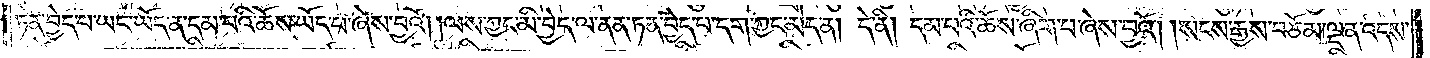ཏན་བྱེད་པ་ཡང་ཡོད་ན་དམ་པའི་ཆོས་ཡོད་པ་ཞེས་བྱའོ། །ལས་ཀྱང་མི་བྱེད་ལ་ནན་ཏན་བྱེད་པ་དག་ཀྱང་མེད་ན། དེ་ནི། དམ་པའི་ཆོས་ཞིག་པ་ཞེས་བྱའོ། །སངས་རྒྱས་བཅོམ་ལྡན་འདས་
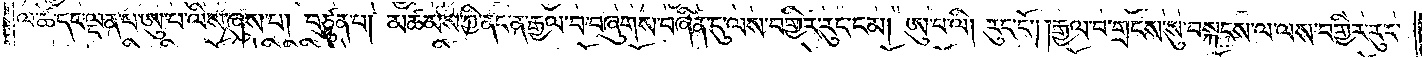ལ་ཚེ་དང་ལྡན་པ་ཨུ་པ་ལིས་ཞུས་པ། བཙུན་པ། མཚམས་ཀྱི་ནང་ན་རྒྱལ་བ་བཞུགས་པ་བཞིན་དུ་ལས་བགྱིར་རུང་ངམ། ཨུ་པ་ལི། རུང་ངོ༌། །རྒྱལ་བ་གྲངས་སུ་བསྐངས་ལ་ལས་བགྱིར་རུང་
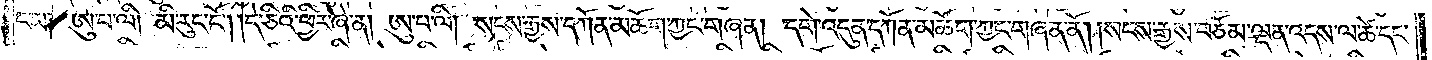ངམ། ཨུ་པ་ལི། མི་རུང་ངོ༌། །དེ་ཅིའི་ཕྱིར་ཞེ་ན། ཨུ་པ་ལི། སངས་རྒྱས་དཀོན་མཆོག་ཀྱང་གཞན། དགེ་འདུན་དཀོན་མཆོག་ཀྱང་གཞན་ནོ། །སངས་རྒྱས་བཅོམ་ལྡན་འདས་ལ་ཚེ་དང་
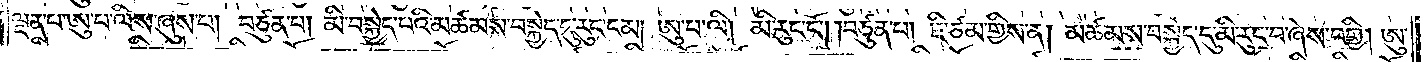ལྡན་པ་ཨུ་པ་ལིས་ཞུས་པ། བཙུན་པ། མི་བསྐྱེད་པའི་མཚམས་བསྐྱེད་རུང་དུ་རུང་ངམ། ཨུ་པ་ལི། མི་རུང་ངོ༌། །བཙུན་པ། ཇི་ཙམ་གྱིས་ན། མཚམས་བསྐྱེད་དུ་མི་རུང་བ་ཞེས་བགྱི། ཨུ་
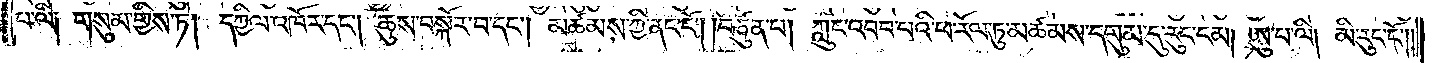པ་ལི། གསུམ་གྱིས་ཏེ། དཀྱིལ་འཁོར་དང༌། ཆུས་བསྐོར་བ་དང༌། མཚམས་ཀྱི་ནང་ངོ༌། །བཙུན་པ། ཀླུང་འབབ་པའི་ཕ་རོལ་ཏུ་མཚམས་དགུམ་དུ་རུང་ངམ། ཨུ་པ་ལི། མི་རུང་ངོ༌༎
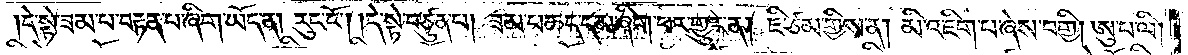དེ་སྟེ་ཟམ་པ་བརྟན་པ་ཞིག་ཡོད་ན། རུང་ངོ༌། །དེ་སྟེ་བཙུན་པ། ཟམ་པ་ཆད་དམ་ཞིག་པར་གྱུར་ན། ཇི་ཙམ་གྱིས་ན། མི་འཇིག་པ་ཞེས་བགྱི། ཨུ་པ་ལི་
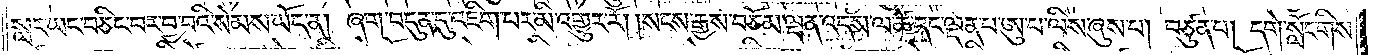སླར་ཡང་བཅིང་བར་བྱ་བའི་སེམས་ཡོད་ན། ཞག་བདུན་དུ་འཇིག་པར་མི་འགྱུར་རོ། །སངས་རྒྱས་བཅོམ་ལྡན་འདས་ལ་ཚེ་དང་ལྡན་པ་ཨུ་པ་ལིས་ཞུས་པ། བཙུན་པ། དགེ་སློང་གིས་
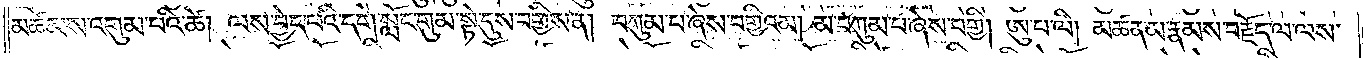མཚམས་འགུམ་པའི་ཚེ། ལས་བྱེད་པའི་དགེ་སློང་གུམ་སྟེ་དུས་བགྱིས་ན། བཀུམ་པ་ཞེས་བགྱིའམ། མ་བཀུམ་པ་ཞེས་བགྱི། ཨུ་པ་ལི། མཚན་མ་རྣམས་བརྗོད་ལ་ལས་
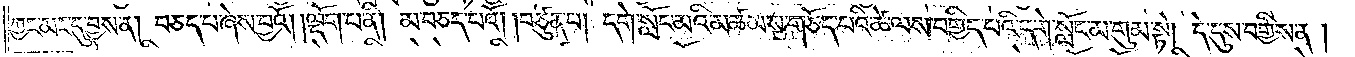ཀྱང་མང་དུ་བྱས་ན། བཅད་པ་ཞེས་བྱའོ། །ལྡོག་པ་ནི། མ་བཅད་པའོ། །བཙུན་པ། དགེ་སློང་མའི་མཚམས་གཅོད་པའི་ཚེ་ལས་བགྱིད་པའི་དགེ་སློང་མ་གུམ་སྟེ། དེ་དུས་བགྱིས་ན་།
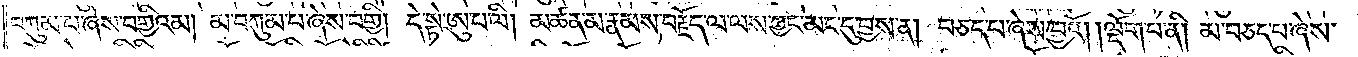བཀུམ་པ་ཞེས་བགྱིའམ། མ་བཀུམ་པ་ཞེས་བགྱི། དེ་སྟེ་ཨུ་པ་ལི། མཚན་མ་རྣམས་བརྗོད་ལ་ལས་ཀྱང་མང་དུ་བྱས་ན། བཅད་པ་ཞེས་བྱའོ། །ལྡོག་པ་ནི། མ་བཅད་པ་ཞེས་
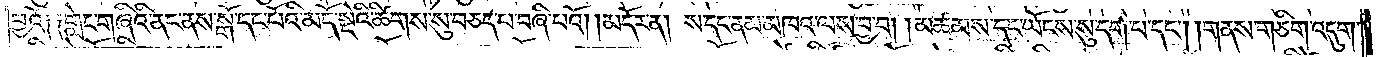བྱའོ༑ ༑གླེང་གཞིའི་ནང་ནས་སྒོ་དང་པོའི་མདོ་སྡེའི་ཚིགས་སུ་བཅད་པ་བཞི་པའོ།    །མདོར་ན། ས་དང་ནམ་མཁའ་ལས་བྱ་བ། །མཚམས་དང་ཡོངས་སུ་དག་པ་དང༌། །གནས་གཅིག་འདུག་
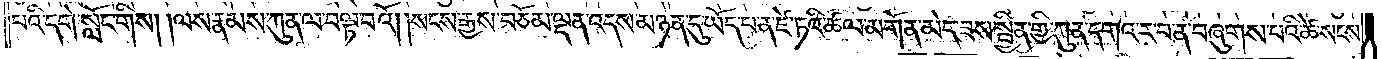པའི་དགེ་སློང་གིས། །ལས་རྣམས་ཀུན་ལ་བལྟ་བའོ། །སངས་རྒྱས་བཅོམ་ལྡན་འདས་མཉན་དུ་ཡོད་པ་ན་ཛེ་ཏའི་ཚལ་མགོན་མེད་ཟས་སྦྱིན་གྱི་ཀུན་དགའ་ར་བ་ན་བཞུགས་པའི་ཚེ་སངས་
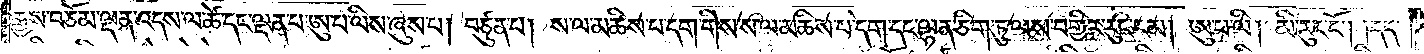རྒྱས་བཅོམ་ལྡན་འདས་ལ་ཚེ་དང་ལྡན་པ་ཨུ་པ་ལིས་ཞུས་པ། བཙུན་པ། ས་ལ་མཆིས་པ་དག་གིས་ས་ལ་མཆིས་པ་དག་དང་ལྷན་ཅིག་ཏུ་ལས་བགྱིར་རུང་ངམ། ཨུ་པ་ལི། མི་རུང་ངོ༌། །དད་
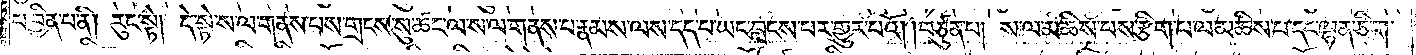པ་བྱིན་པ་ནི། རུང་སྟེ། དེ་སྟེ་ས་ལ་གནས་པས་གྲངས་སུ་ཚང་ལ་ས་ལ་གནས་པ་རྣམས་ལས་དད་པ་ཡང་བླངས་པར་གྱུར་པའོ། །བཙུན་པ། ས་ལ་མཆིས་པས་རྩིག་པ་ལ་མཆིས་པ་དང་ལྷན་ཅིག་
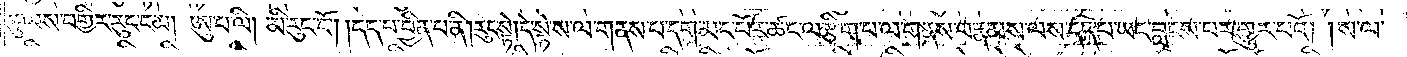ཏུ་ལས་བགྱིར་རུང་ངམ། ཨུ་པ་ལི། མི་རུང་ངོ༌། །དད་པ་བྱིན་པ་ནི། རུང་སྟེ། དེ་སྟེ་ས་ལ་གནས་པ་དག་མང་པོར་ཚང་ལ་རྩིག་པ་ལ་གནས་པ་རྣམས་ལས་དད་པ་ཡང་བླངས་པར་གྱུར་པའོ། །ས་ལ་
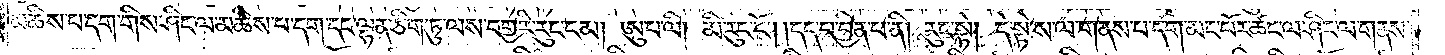མཆིས་པ་དག་གིས་ཤིང་ལ་མཆིས་པ་དག་དང་ལྷན་ཅིག་ཏུ་ལས་བགྱིར་རུང་ངམ། ཨུ་པ་ལི། མི་རུང་ངོ༌། །དད་པ་བྱིན་པ་ནི། རུང་སྟེ། དེ་སྟེ་ས་ལ་གནས་པ་དག་མང་པོར་ཚང་ལ་ཤིང་ལ་གནས་
